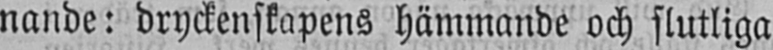nande: dryckenskapens hämmande och slutliga
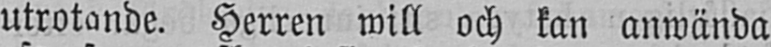utrotande. Herren will och kan anwanda
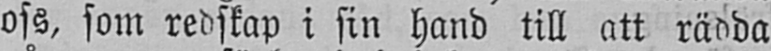oss, som redskap i sin hand till att rädda
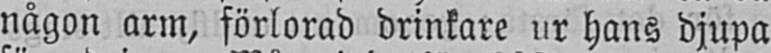någon arm, förlorad drinkare ur hans djupa
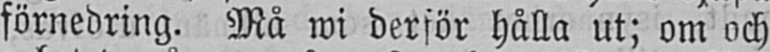förnedring. Må wi derför hålla ut; om och
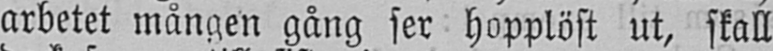arbetet mången gång ser hopplöst ut, skall
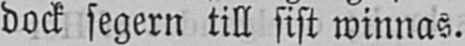dock segern till sist winnas.
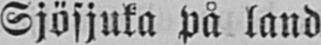Sjösjuka på land
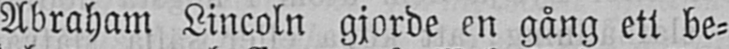Abraham Lincoln gjorde en gång ett be-
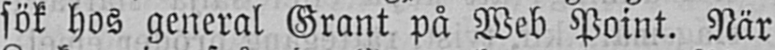sök hos general Grant på Web Point. När
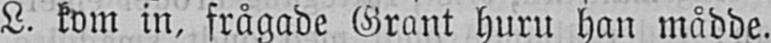L. kom in, frågade Grant huru han mådde.
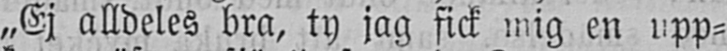„Ej alldeles bra, ty jag fick mig en upp-
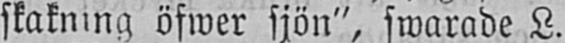skakning öfwer sjön", swarade L.
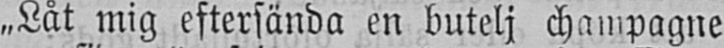„Låt mig eftersända en butelj champagne
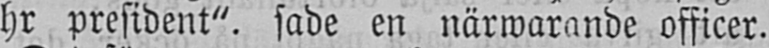hr president", sade en närwarande officer.
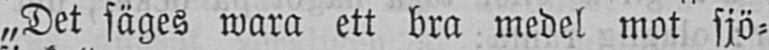„Det säges wara ett bra medel mot sjö-
